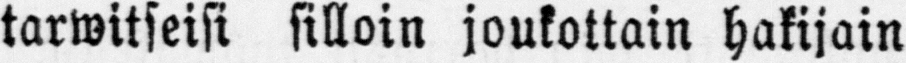tarwitseisi silloin joukottain hakijain
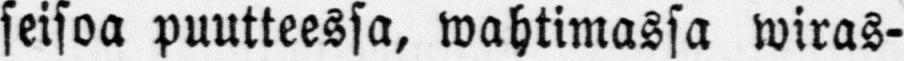seisoa puutteessa, wahtimassa wiras-
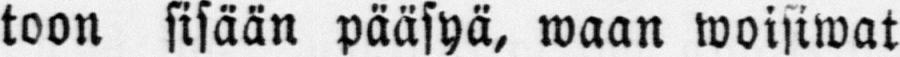toon sisään pääsyä, waan woisiwat
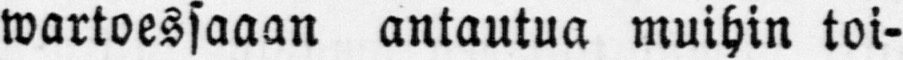wartoessaaan antautua muihin toi-
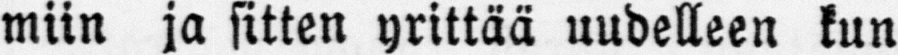miin ja sitten yrittää uudelleen kun
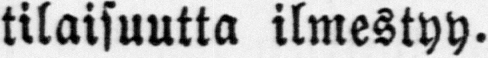tilaisuutta ilmestyy.
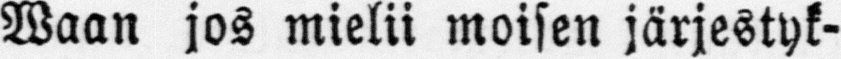Waan jos mielii moisen järjestyk-
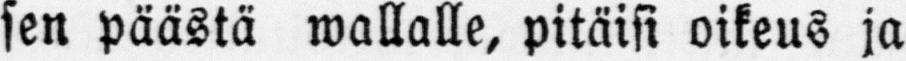sen päästä wallalle, pitäisi oikeus ja
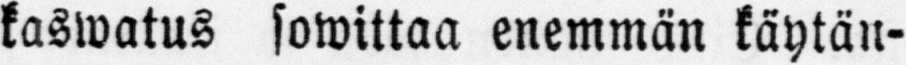kaswatus sowittaa enemmän käytän-
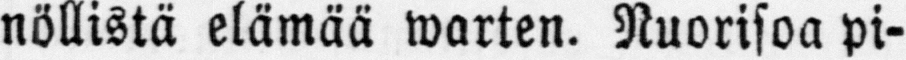nöllistä elämää warten. Nuorisoa pi-
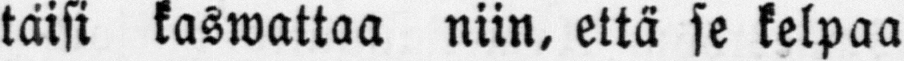täisi kaswattaa niin, että se kelpaa
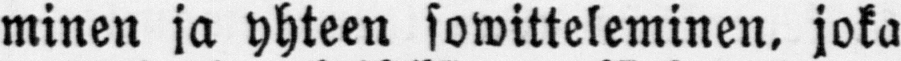minen ja yhteen sowitteleminen, joka
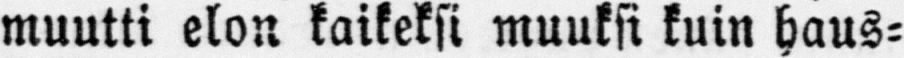muutti elon kaikeksi muuksi kuin haus-
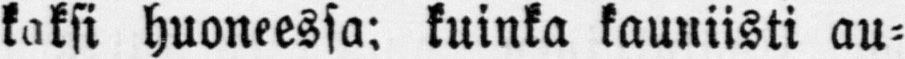kaksi huoneessa: kuinka kauniisti au-
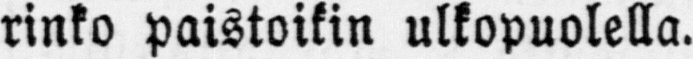rinko paistoikin ulkopuolella.
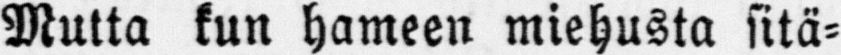Mutta kun hameen miehusta sitä-
